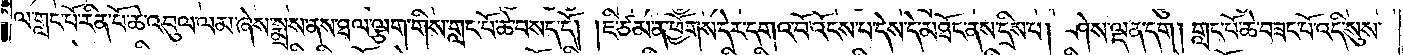ལ་གླང་པོ་རིན་པོ་ཆེ་འབུལ་ལམ་ཞེས་སྨྲས་ནས་ཐལ་ལྕག་གིས་གླང་པོ་ཆེ་བསད་དོ། །ཇི་ཙམ་ན་ཕྱོགས་དེར་དགའ་བོ་འོངས་པ་དེས་དེ་མཐོང་ནས་དྲིས་པ། ཤེས་ལྡན་དག། གླང་པོ་ཆེ་བཟང་པོ་འདི་སུས་
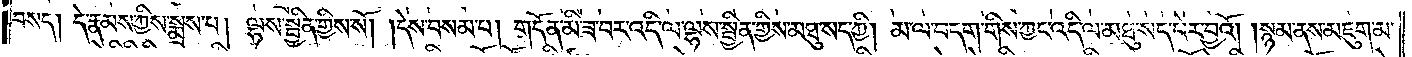བསད། དེ་རྣམས་ཀྱིས་སྨྲས་པ། ལྷས་སྦྱིན་གྱིས་སོ། །དེས་བསམ་པ། གདོན་མི་ཟ་བར་འདི་ལ་ལྷས་སྦྱིན་གྱིས་མཐུ་སད་ཀྱི། མ་ལ་བདག་གིས་ཀྱང་འདི་ལ་མཐུ་སད་པར་བྱའོ། །སྙམ་ནས་མཇུག་མ་
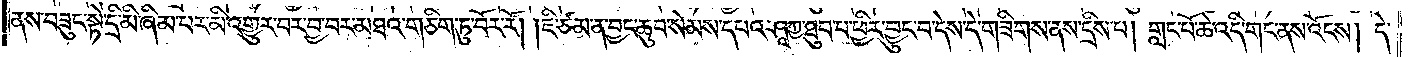ནས་བཟུང་སྟེ་དྲི་མི་ཞིམ་པར་མི་འགྱུར་བར་བྱ་བར་མཐའ་གཅིག་ཏུ་བོར་རོ། །ཇི་ཙམ་ན་བྱང་ཆུབ་སེམས་དཔའ་ཤཱཀྱ་ཐུབ་པ་ཕྱིར་བྱུང་བ་དེས་དེ་གཟིགས་ནས་དྲིས་པ། གླང་པོ་ཆེ་འདི་གང་ནས་འོངས། དེ་
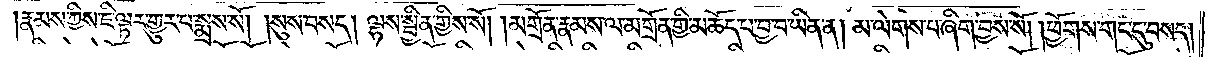།རྣམས་ཀྱིས་ཇི་ལྟར་གྱུར་པ་སྨྲས་སོ། །སུས་བསད། ལྷས་སྦྱིན་གྱིས་སོ། །མགྲོན་རྣམས་ལ་མགྲོན་གྱི་མཆོད་པ་བྱ་བ་ཡིན་ན། མ་ལེགས་པ་ཞིག་བྱས་སོ། །ཕྱོགས་གང་དུ་བསད།
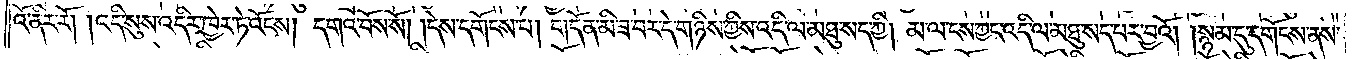འོ་ནིར་རོ། །འདི་སུས་འདིར་ཁྱེར་ཏེ་འོངས། དགའ་བོས་སོ། །དེས་དགོངས་པ། གདོན་མི་ཟ་བར་དེ་གཉིས་ཀྱིས་འདི་ལ་མཐུ་སད་ཀྱི། མ་ལ་ངས་ཀྱང་འདི་ལ་མཐུ་སད་པར་བྱའོ། །སྙམ་དུ་དགོངས་ནས་
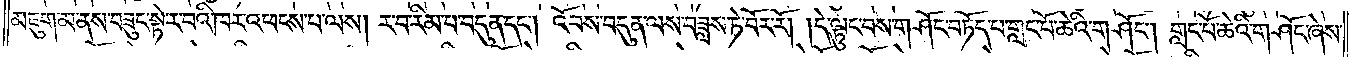མཇུག་མ་ནས་བཟུང་སྟེ་ར་བའི་ཁར་འཕངས་པ་ལས། ར་བ་རིམ་པ་བདུན་དང༌། འོབས་བདུན་ལས་བཟླས་ཏེ་བོར་རོ། །དེ་ལྟུང་བས་གཤོང་བཏོད་པ་གླང་པོ་ཆེའི་གཤོང༌། གླང་པོ་ཆེའི་གཤོང་ཞེས་
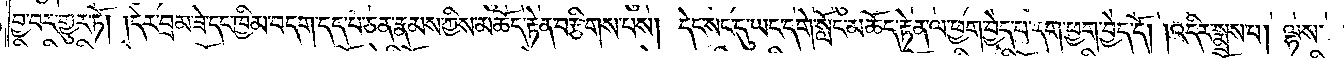བྱ་བར་གྱུར་ཏོ། །དེར་བྲམ་ཟེ་དང་ཁྱིམ་བདག་དད་པ་ཅན་རྣམས་ཀྱིས་མཆོད་རྟེན་བརྩིགས་པས། དེང་སང་དུ་ཡང་དགེ་སློང་མཆོད་རྟེན་ལ་ཕྱག་བྱེད་པ་དག་ཕྱག་བྱེད་དོ། །འདིར་སྨྲས་པ། ལྷས་
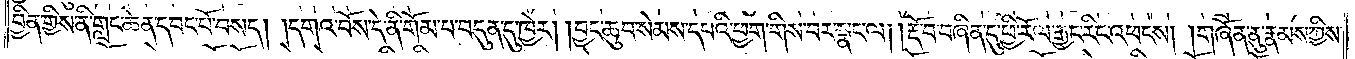བྱིན་གྱིས་ནི་གླང་ཆེན་དབང་པོ་བསད། །དགའ་བོས་དེ་ནི་གོམ་པ་བདུན་དུ་ཁྱེར། །བྱང་ཆུབ་སེམས་དཔའི་ཕྱག་གིས་བར་སྣང་ལ། །རྡོ་བ་བཞིན་དུ་ཕྱི་རོལ་རྒྱང་རིང་འཕངས། །གཞོན་ནུ་རྣམས་ཀྱིས་
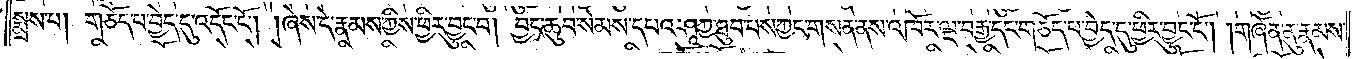སྨྲས་པ། གཅོད་པ་བྱེད་དུ་འདོང་ངོ༌། །ཞེས་དེ་རྣམས་ཀྱིས་ཕྱིར་བྱུང་བ། བྱང་ཆུབ་སེམས་དཔའ་ཤཱཀྱ་ཐུབ་པས་ཀྱང་གསན་ནས་འཁོར་ལྔ་བརྒྱ་དང་གཅོད་པ་བྱེད་དུ་ཕྱིར་བྱུང་ངོ༌། །གཞོན་ནུ་རྣམས་
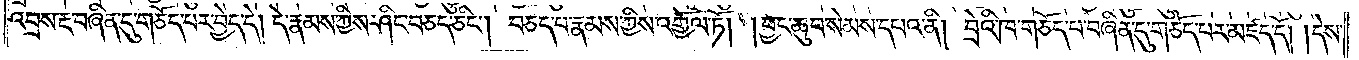འབྲས་རྔ་བཞིན་དུ་གཅོད་པར་བྱེད་དེ། དེ་རྣམས་ཀྱིས་ཤིང་བཅད་ཅིང༌། བཅད་པ་རྣམས་ཀྱིས་འགྱེལ་ཏོ། །བྱང་ཆུབ་སེམས་དཔའ་ནི། བྲེའི་ཁ་གཅོད་པ་བཞིན་དུ་གཅོད་པར་མཛད་དོ། །དེས་
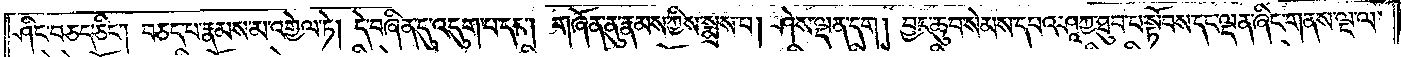ཤིང་བཅད་ཅིང༌། བཅད་པ་རྣམས་མ་འགྱེལ་ཏེ། དེ་བཞིན་དུ་འདུག་པ་དང༌། གཞོན་ནུ་རྣམས་ཀྱིས་སྨྲས་པ། ཤེས་ལྡན་དག། བྱང་ཆུབ་སེམས་དཔའ་ཤཱཀྱ་ཐུབ་པ་སྟོབས་དང་ལྡན་ཞིང་གནས་ལྔ་ལ་
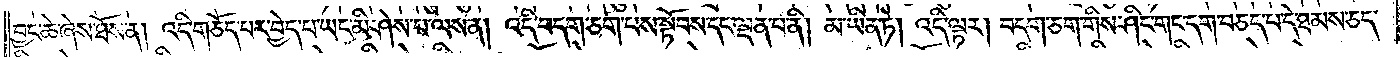བྱང་ཆེ་ཞེས་ཐོས་ན། འདི་གཅོད་པར་བྱེད་པ་ཡང་མི་ཤེས་པ་ལས་ན། འདི་བདག་ཅག་པས་སྟོབས་དང་ལྡན་པ་ནི། མ་ཡིན་ཏེ། འདི་ལྟར། བདག་ཅག་གིས་ཤིང་གང་དག་བཅད་པ་དེ་ཐམས་ཅད་
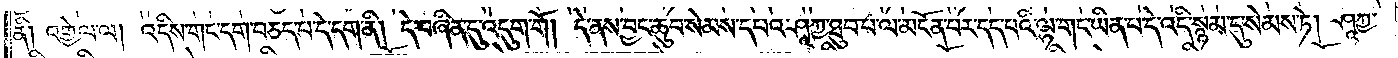ནི། འགྱེལ་ལ། འདིས་གང་དག་བཅད་པ་དེ་དག་ནི། དེ་བཞིན་དུ་འདུག་གོ། དེ་ནས་བྱང་ཆུབ་སེམས་དཔའ་ཤཱཀྱ་ཐུབ་པ་ལ་མངོན་པར་དད་པའི་ལྷ་གང་ཡིན་པ་དེ་འདི་སྙམ་དུ་སེམས་ཏེ། ཤཱཀྱ་
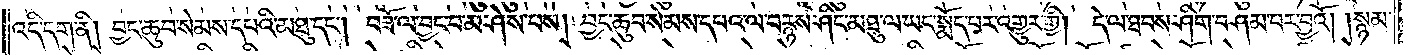འདི་དག་ནི། བྱང་ཆུབ་སེམས་དཔའི་མཐུ་དང༌། བཟོ་ལ་བྱང་བ་མ་ཤེས་པས། བྱང་ཆུབ་སེམས་དཔའ་ལ་བརྙས་ཤིང་མཐུ་ལ་ཡང་སྨོད་པར་འགྱུར་གྱི། དེ་ལ་ཐབས་ཤིག་བཤམ་པར་བྱའོ། །སྙམ་
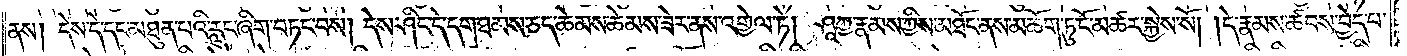ནས། དེས་དེ་དང་མཐུན་པའི་རླུང་ཞིག་བཏང་བས། དེས་ཤིང་དེ་དག་ཐམས་ཅད་ཆེམས་ཆེམས་ཟེར་ནས་འགྱེལ་ཏེ། ཤཱཀྱ་རྣམས་ཀྱིས་མཐོང་ནས་མཆོག་ཏུ་ངོ་མཚར་སྐྱེས་སོ། །དེ་རྣམས་ཚ་བས་བྱེད་པ་
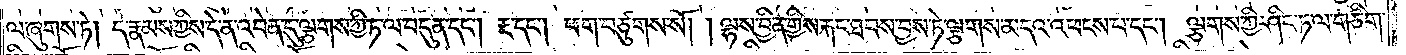ལ་ཞུགས་ཏེ། དེ་རྣམས་ཀྱིས་དེ་ན་འབེན་དུ་ལྕགས་ཀྱི་ཏ་ལ་བདུན་དང༌། རྔ་དང༌། ཕག་བཙུགས་སོ། །ལྷས་བྱིན་གྱིས་རྐང་ཐབས་བྱས་ཏེ་ལྕགས་མདའ་འཕངས་པ་དང༌། ལྕགས་ཀྱི་ཤིང་ཏ་ལ་གཅིག་
